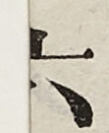六
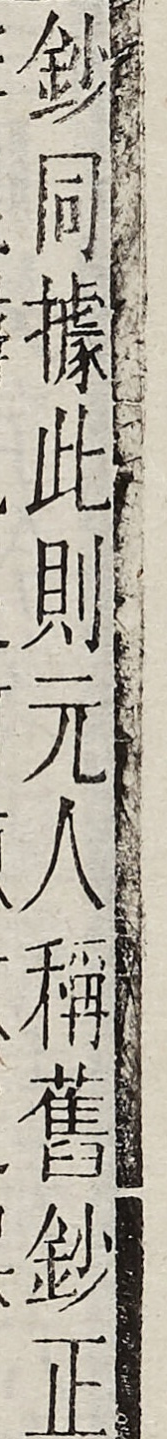鈔同據此則元人稱舊鈔正
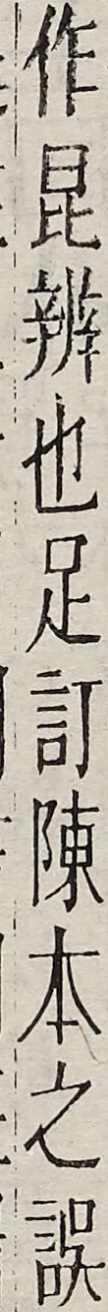作昆辨也足訂陳本之誤
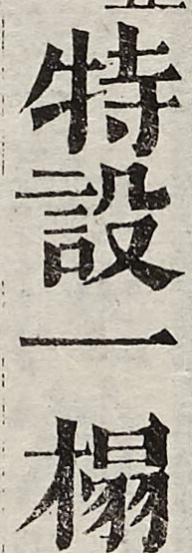特設一榻
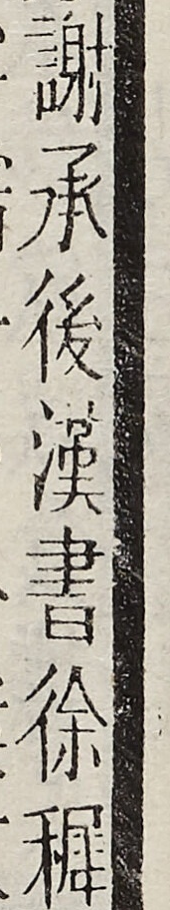謝承後漢書徐□
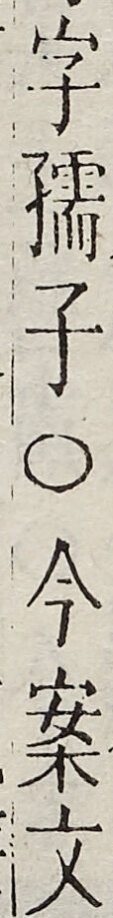字孺子○今案文
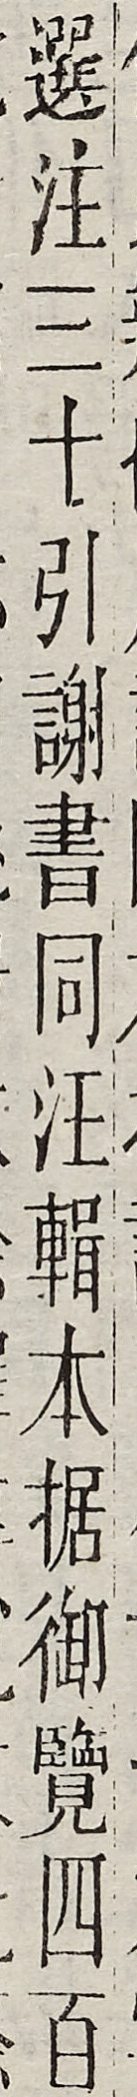選注三七引謝書同汪輯本據御覽四百
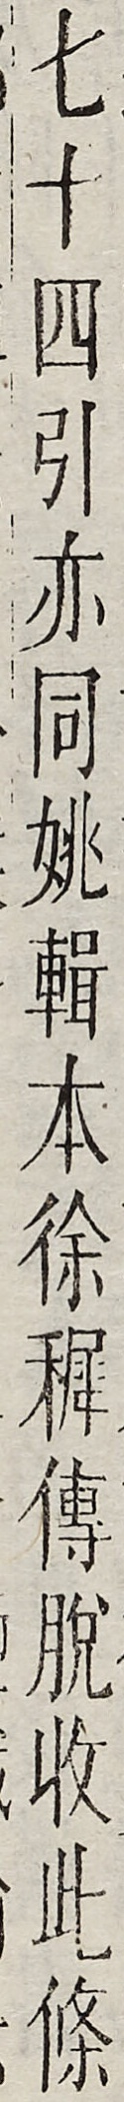七十四引亦同姚輯本徐穉傳脫改此條
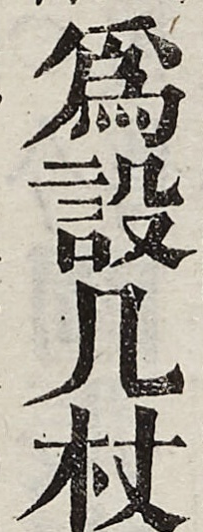為設幾杖
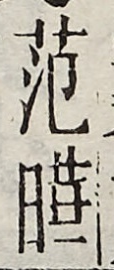範曄
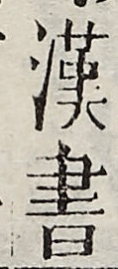漢書
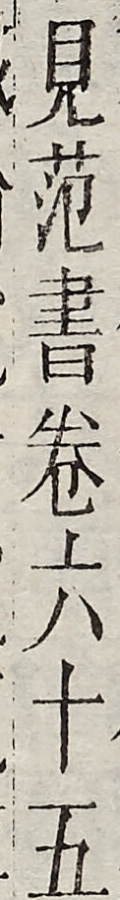見範書卷六十五
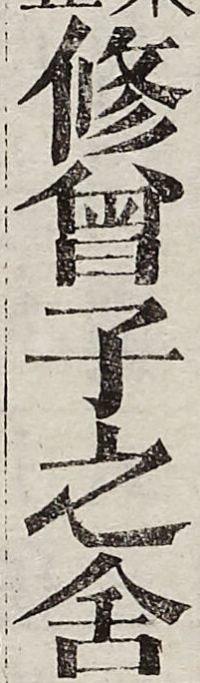修曾子之舍
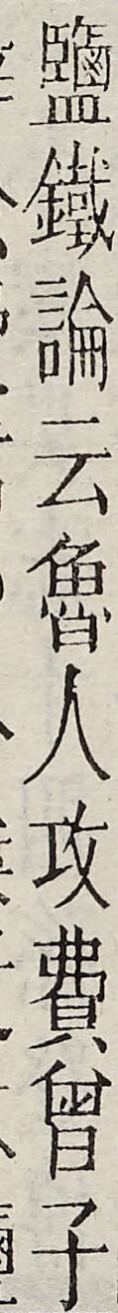監鐵論云魯人攻費曾子
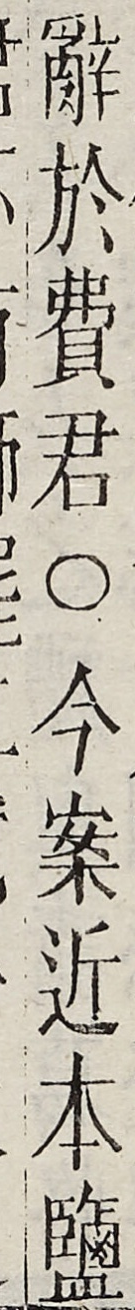辭於費君○今案近本鹽
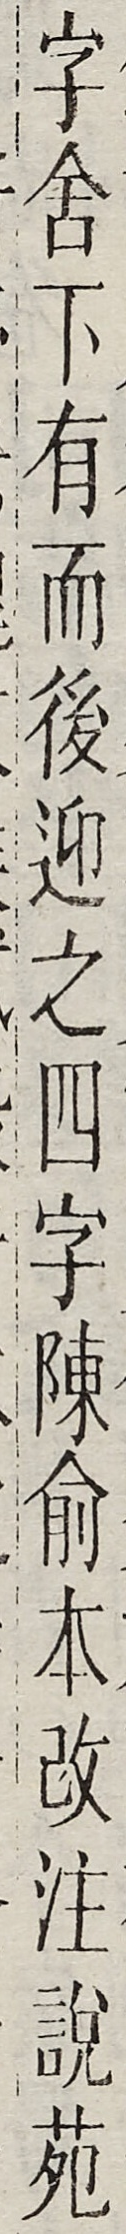字舍下有而後迎之四字陳俞本改注說苑
